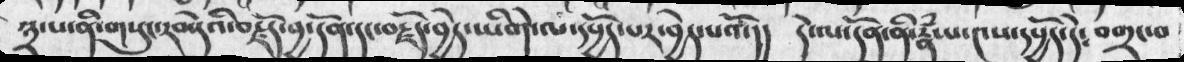༣་པ་ནི་གསུང་རབ་དེའི་བརྗོད་བྱ་དོན་དང་བརྗོད་བྱེད་ཡིགེ་ལ་དཔྱོད་པར་བྱེད་པའོ་།། དེ་ལ་དོན་ནི་རྣཾ་པ་༤ས་དཔྱོད་དེ༴ བགྲང་བ
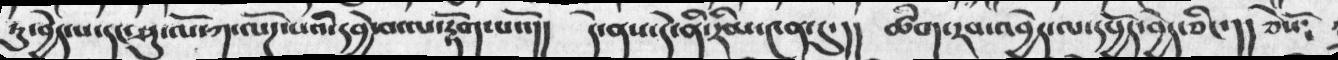ཏུ་བྱེད་པ་དང་ཤུ་ལོ་ཀ་ལོཌ་པའི་དབྱེ་བ་ལ་རྟོག་པའོ།།    དེ་ནས་དེ་ནི་རིམ་༤ན་དུ་།།      ཚིག་རབ་འབྱེད་ལ་དཔྱོད་བྱེད་ཅིང་།།   ཅེསོ༴
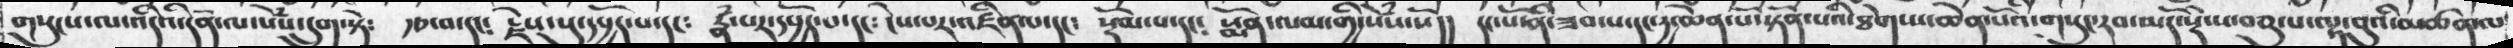གསུངས་ལ་འདིའི་དོན་ལ་སེཾས་དྲུག་སྟེ༴     རྩ་བ་དང༴   རྗེས་སུ་དཔྱོད་པ་དང༴    རྣཾ་པར་དཔྱོད་པ་དང༴  ངེས་པར་འཛིན་པ་དང༴   སྡོམ་པ་དང༴   སྨོན་ལམ་གྱི་སེཾས་སོ།།   དང་པོ་ནི་ཟབ་པ་དང་དྱ་ཆེན་པོ་སྟོན་པའི་ཐེག་པ་ཆེན་པོའི་གསུང་རབ་མདོ་སྡེེ་ས་བཅུ་པ་ལྟ་བུའི་མཚན་ལ་
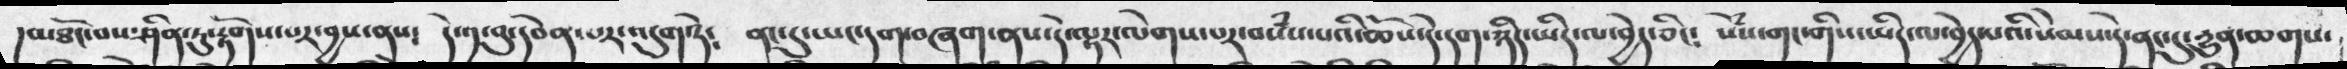།མཐོང་པས་ཤིན་ཏུ་རྟོགས་པར་བྱས་ནས་  དེ་༡་བུ་དབེན་པར་འདུག་ཏེ༴   ནང་དུ་ཡང་དག་བཞག་ནས་དེ་ལྟར་ལེགས་པར་བསཾས་པའི་ཆོས་དེ་དག་ཉིད་ཡིད་ལ་བྱེད་ཅིང༴  སེཾས་གང་གིས་ཡིད་ལ་བྱེད་པའི་སེམས་དེ་ནང་དུ་རྱུན་ཆགས་
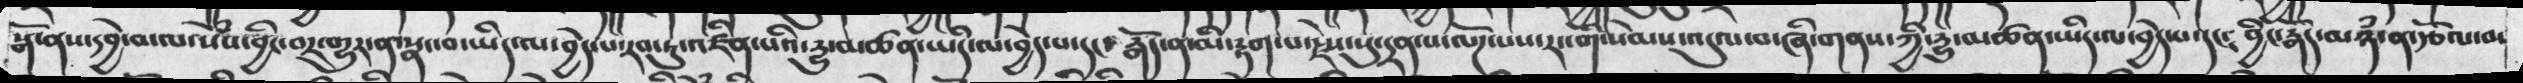སྒོ་ནས་དབྱེ་བ་ལ་སེྃས་བྱིང་བར་གྱུར་ན་སྣང་བ་ཡིད་ལ་བྱེད་པ་རབ་ཏུ་འཛིན་པའི་དྱུ་མཚན་ཡིད་ལ་བྱེད་པ་དང༴  རྒོད་ན་མི་རྟག་པ་རྗེས་སུ་དྲན་པ་ལོཌ་པས་རང་གི་སེམས་འདུལ་བ་ཞི་གནས་ཀྱི་དྱུ་མཚན་ཡིད་ལ་བྱེད་པ་དང༴   བྱིང་རྒོད་མཉཾ་ན་རྩོལ་བ་
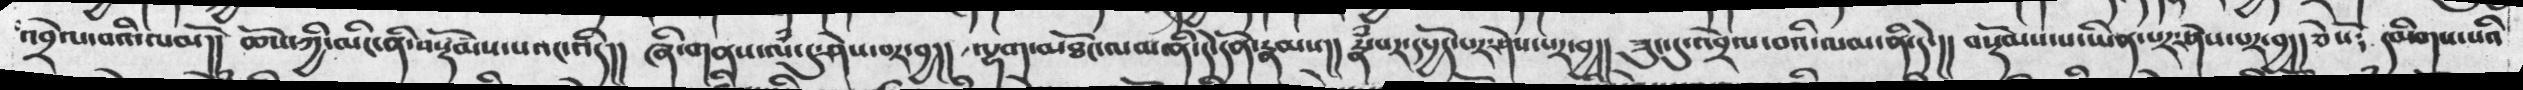འབྲེལ་བའི་ལམོ།།   ཆོས་ཀྱི་མིང་ནི་བསྡོམས་པའང་འདི།།  ཞི་གནས་ལྃ་དུ་ཤེས་བར་བྱ།།  ལྷག་མཐོང་ལམ་ནི་དེ་དོན་རྣམས།།   རྣྃ་པར་དཔྱོད་པར་ཤེས་པར་བྱ།།  ཟུང་དུ་འབྲེལ་བའི་ལམ་ནི་དེ་།།   བསྡོམས་པ་ཡིན་པར་ཤེས་པར་བྱ།།  ཅེསོ༴  དམིགས་པའི
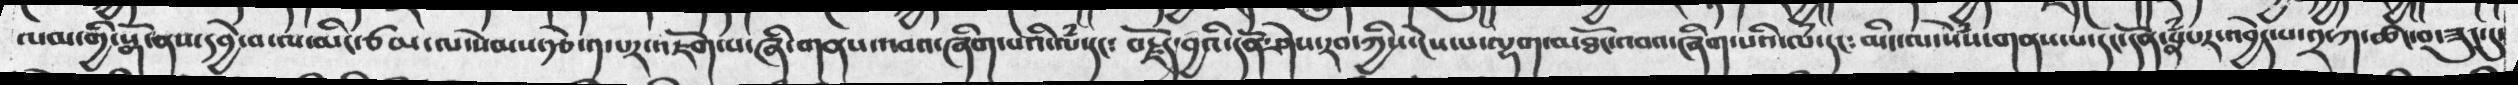ལམ་གྱི་སྒོ་ནས་དབྱེ་བ་ལ་མིང་ཙམ་ལ་སེམས་རྩེ་༡་པར་འཇོག་པ་ཞི་གནས་འབའ་ཞིག་པའི་ལཾ་དང༴  བརྗོད་བྱའི་དོན་ཤེས་རབ་ཀྱིས་ངེས་པ་ལྷག་མཐོང་འབའ་ཞིག་པའི་ལྃ་དང༴  མིང་ལ་སེྃས་གནས་པ་དང་དོན་རྣཾ་པར་འབྱེད་པ་༢་ཀ་ཚང་བ་ཟུང་དུ་
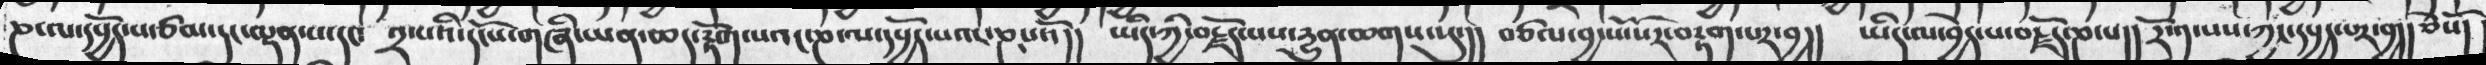ཎ་ལ་དཔྱོང་པ་ཙམ་དང་ལྡན་པ་དང་  ༢་པའི་དངོས་གཞི་ཡན་ཆད་རྟོག་པའང་ཎ་ལ་དཔྱོད་པའང་ཎ་པའོ།།  ཡིད་ཀྱི་བརྗོད་པས་དྱུན་ཆགས་སུ་།།  བཙལ་བྱ་སོ་སོར་བརྟག་པར་བྱ།།  ཡིད་ལ་བྱེད་པ་བརྗོད་ཎ་པ།།   རོ་༡་པས་ཀྱང་དཔྱད་པར་བྱ།།  ཅེསོ།
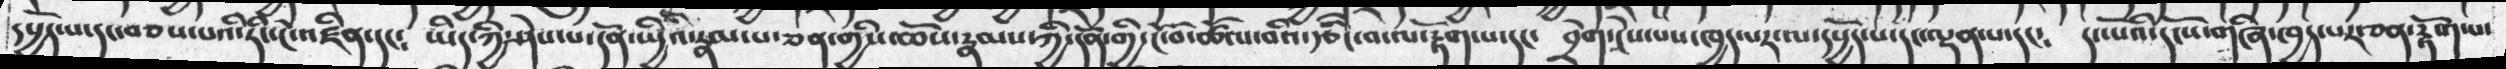དཔྱོད་པ་དང་བཅས་པའི་ཏིང་ངེ་འཛིན་དང༴   ཡིད་ཀྱི་ཤེས་པ་དོན་ཡྱིའི་རྣམ་པ་ཅན་གྱིས་ཆོས་རྣམས་ཀྱི་དོན་གྱི་ངོ་བོ་ཚོལ་བའི་རྩིང་བ་ལ་རྟོག་པ་དང་  བྲེག་ངེས་པས་ཁྱད་པར་ལ་དཔྱོད་པ་དང་ལྡན་པ་དང༴  དང་པོའི་དངོས་གཞི་ཁྱད་པར་ཅན་རྟོག་པ་
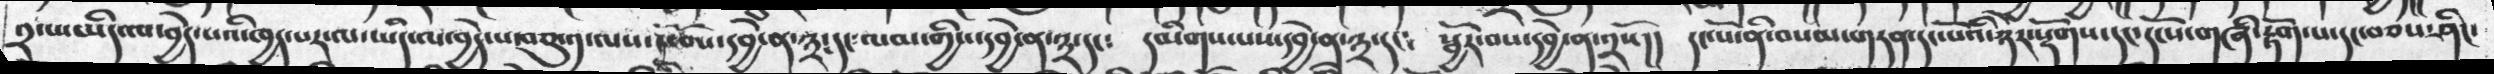༢་པ་ཡིད་ལ་བྱེད་པའི་ཁྱད་པར་ལ་ཡིད་ལ་བྱེད་པ་བཅུ་༡་ལས་ཆོས་དབྱེ་ན་༣་དང༴ ལམ་གྱིས་དབྱེ་ན་༣་དང༴  དམིགས་པས་དབྱེ་ན་༣་དང༴  སྦྱོར་བས་དབྱེ་ན་༢སོ།།  དང་པོ་ནི་བསམ་གཏན་དང་པོའི་ཉེར་སྡོགས་དང་དངོས་གཞི་རྟོག་པ་དང་བཅས་ཤིང་
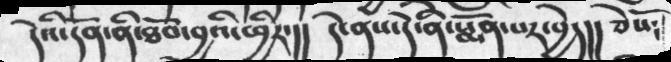དེའི་དོན་ནི་ཐོབ་བྱའི་ཕྱིར་།།    དེ་ནས་དེ་ནི་སྨོན་པར་བྱེད།།  ཅེསོ༴
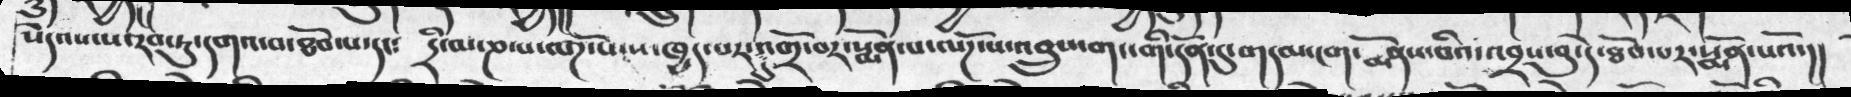སེདའས་ས་རབ་ཏུ་དགའ་བ་ཐོབ་པ་དང༴  དྲི་་ཎ་པ་ལོཌ་པ་ས་ཁྱད་པར་དུ་འགྲོ་བར་སྨོན་པ་ལོཌ་པ་འབྲུས་གང་གི་དོན་དུ་གདམ་ངག་སྨོནས་བའི་འབྲས་བུ་དེ་ཐོབ་པར་སྨོན་པའོ་།།
